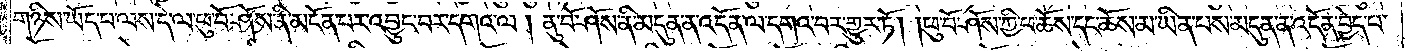གཉིས་ཡོད་པ་ལས་དེ་ལ་ཕུ་བོ་ཤོས་ནི་མངོན་པར་འབྱུང་བར་དགའ་ལ། ནུ་བོ་ཤོས་ནི་མདུན་ན་འདོན་ལ་དགའ་བར་གྱུར་ཏོ། །ཕུ་བོ་ཤོས་ཀྱི་ཕ་ཆོས་དང་ཆོས་མ་ཡིན་པས་མདུན་ན་འདོན་བྱེད་པ་
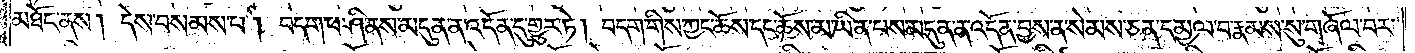མཐོང་ནས། དེས་བསམས་པ། བདག་ཕ་ཤི་ནས་མདུན་ན་འདོན་དུ་གྱུར་ཏེ། བདག་གིས་ཀྱང་ཆོས་དང་ཆོས་མ་ཡིན་པས་མདུན་ན་འདོན་བྱས་ན་སེམས་ཅན་དམྱལ་བ་རྣམས་སུ་གཞོལ་བར་
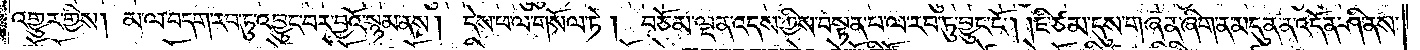འགྱུར་གྱིས། མ་ལ་བདག་རབ་ཏུ་འབྱུང་བར་བྱའོ་སྙམ་ནས། དེས་ཕ་ལ་གསོལ་ཏེ། བཅོམ་ལྡན་འདས་ཀྱིས་བསྟན་པ་ལ་རབ་ཏུ་བྱུང་ངོ༌། །ཇི་ཙམ་དུས་གཞན་ཞིག་ན་མདུན་ན་འདོན་ཤི་ནས་
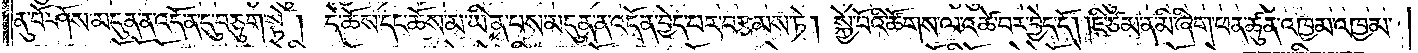ནུ་བོ་ཤོས་མདུན་ན་འདོན་དུ་བཅུག་སྟེ། དེ་ཆོས་དང་ཆོས་མ་ཡིན་པས་མདུན་ན་འདོན་བྱེད་པར་བརྩམས་ཏེ། སྐྱེ་བོའི་ཚོགས་ལ་འཚེ་བར་བྱེད་དོ། །ཇི་ཙམ་ན་མི་ཞིག་ཕན་ཚུན་འཁྱམ་འཁྱམ་
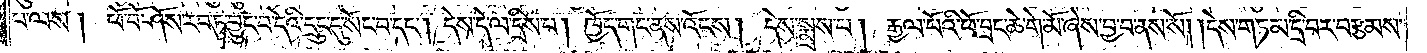པ་ལས། ཕོ་བོ་ཤོས་རབ་ཏུ་བྱུང་བ་དེའི་དྲུང་དུ་སོང་བ་དང༌། དེས་དེ་ལ་དྲིས་པ། ཁྱོད་གང་ནས་འོངས། དེས་སྨྲས་པ། རྒྱལ་པོའི་ཕོ་བྲང་ཆེ་གེ་མོ་ཞེས་བྱ་བ་ནས་སོ། །དེས་གཏམ་དྲི་བར་བརྩམས་
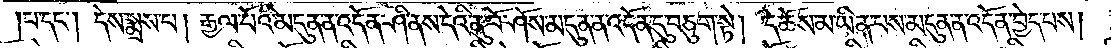།པ་དང༌། དེས་སྨྲས་པ། རྒྱལ་པོའི་མདུན་ན་འདོན་ཤི་ནས་དེའི་ནུ་བོ་ཤོས་མདུན་ན་འདོན་དུ་བཅུག་སྟེ། དེ་ཆོས་མ་ཡིན་པས་མདུན་ན་འདོན་བྱེད་པས།
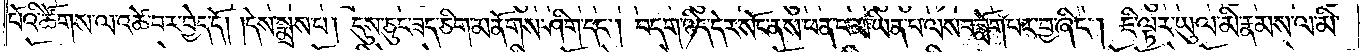པོའི་ཚོགས་ལ་འཚེ་བར་བྱེད་དོ། །དེས་སྨྲས་པ། དུས་ཅུང་ཟད་ཅིག་མནོགས་ཤིག་དང༌། བདག་ཉིད་དེར་སོང་ནས་ཕན་པ་མ་ཡིན་པ་ལས་བཟློག་པར་བྱ་ཞིང༌། ཇི་ལྟར་ཡུལ་མི་རྣམས་ལ་མི་
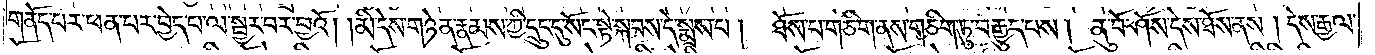གནོད་པར་ཕན་པར་བྱེད་པ་ལ་སྦྱར་བར་བྱའོ། །མི་དེས་གཉེན་རྣམས་ཀྱི་དྲུང་དུ་སོང་སྟེ་སྐབས་དེ་སྨྲས་པ། ཐོས་པ་གཅིག་ནས་གཅིག་ཏུ་བརྒྱུད་པས། ནུ་བོ་ཤོས་དེས་ཐོས་ནས། དེས་རྒྱལ་
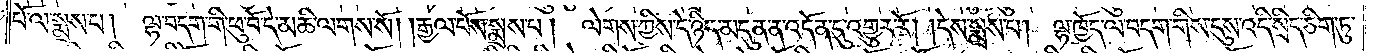པོ་ལ་སྨྲས་པ། ལྷ་བདག་གི་ཕུ་བོ་དེ་མཆི་ལགས་སོ། །རྒྱལ་པོས་སྨྲས་པ། ལེགས་ཀྱིས་དེ་ཉིད་མདུན་ན་འདོན་དུ་འགྱུར་རོ། །དེས་སྨྲས་པ། ལྷ་ཁྱོད་ལ་བདག་གིས་དུས་འདི་སྲིད་ཅིག་ཏུ་
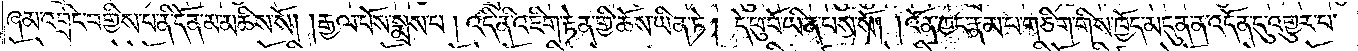ཞམ་འབྲིང་བགྱིས་པ་ནི་དོན་མ་མཆིས་སོ། །རྒྱལ་པོས་སྨྲས་པ། འདི་ནི་འཇིག་རྟེན་གྱི་ཆོས་ཡིན་ཏེ། དེ་ཕུ་བོ་ཡིན་པས་སོ། །འོན་ཀྱང་རྣམ་པ་གཅིག་གིས་ཁྱོད་མདུན་ན་འདོན་དུ་འགྱུར་པ་
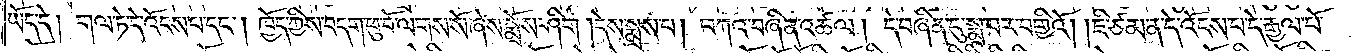ཡོད་དེ། གལ་ཏེ་དེ་འོངས་པ་དང༌། ཁྱོད་ཀྱིས་བདག་ཕུ་བོ་ལགས་སོ་ཞེས་སྨྲོས་ཤིག །དེས་སྨྲས་པ། བཀའ་བཞིན་འཚལ། དེ་བཞིན་དུ་སྨྲ་བར་བགྱིའོ། །ཇི་ཙམ་ན་དེ་འོངས་པ་དེ་རྒྱལ་པོ་
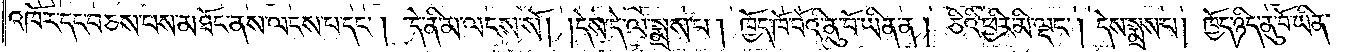འཁོར་དང་བཅས་པས་མཐོང་ནས་ལངས་པ་དང༌། དེ་ནི་མ་ལངས་སོ། །དེས་དེ་ལ་སྨྲས་པ། ཁྱོད་ཁོ་བོའི་ནུ་བོ་ཡིན་ན། ཅིའི་ཕྱིར་མི་ལྡང༌། དེས་སྨྲས་པ། ཁྱོད་ཉིད་ནུ་བོ་ཡིན་
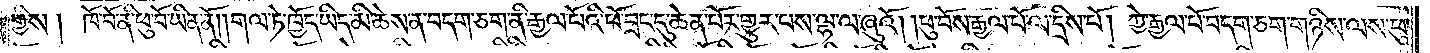གྱིས། ཁོ་བོ་ནི་ཕུ་བོ་ཡིན་ནོ། །གལ་ཏེ་ཁྱོད་ཡིད་མི་ཆེས་ན་བདག་ཅག་ནི་རྒྱལ་པོའི་ཕོ་བྲང་དུ་ཆེན་པོར་གྱུར་པས་ལྷ་ལ་ཞུའོ། །ཕུ་བོས་རྒྱལ་པོ་ལ་དྲིས་པོ། ཀྱེ་རྒྱལ་པོ་བདག་ཅག་གཉིས་ལས་ཕུ་
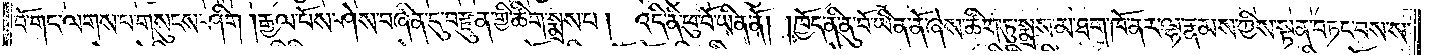བོ་གང་ལགས་པ་གསུང་ཤིག །རྒྱལ་པོས་ཤེས་བཞིན་དུ་བརྫུན་གྱི་ཚིག་སྨྲས་པ། འདི་ནི་ཕུ་བོ་ཡིན་ནོ། །ཁྱོད་ནི་ནུ་བོ་ཡིན་ནོ་ཞེས་ཚིག་ཏུ་སྨྲས་མ་ཐག་ཁོ་ནར་ལྷ་རྣམས་ཀྱིས་སྟན་བཏང་བས་ས་
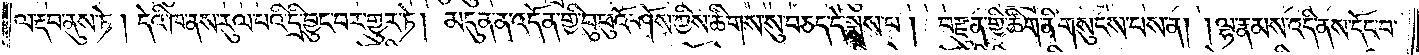ལ་རྡབ་ནུས་ཏེ། དེའི་ཁ་ནས་རུལ་པའི་དྲི་བྱུང་བར་གྱུར་ཏེ། མདུན་ན་འདོན་གྱི་བུ་ཕུའོ་ཤོས་ཀྱིས་ཚིགས་སུ་བཅད་དེ་སྨྲས་པ། བརྫུན་གྱི་ཚིག་ནི་གསུངས་པས་ན། །ལྷ་རྣམས་འདི་ནས་དོང་བ་
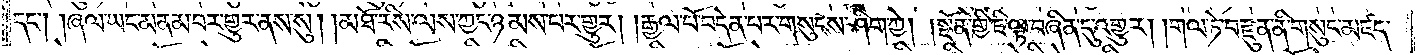དང༌། །ཞལ་ཡང་མནམ་པར་གྱུར་ནས་སུ། །མཐོ་རིས་ལས་ཀྱང་ཉམས་པར་གྱུར། །རྒྱལ་པོ་བདེན་པར་གསུངས་ཤིག་ཀྱེ། །སྔོན་གྱི་ཇི་ལྟ་བཞིན་དུ་འགྱུར། །གལ་ཏེ་བརྫུན་ནི་གསུང་མཛད་
